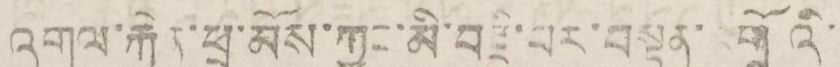འགལ་རྐྱེན་ཕྲ་མོས་ཀྱང་མི་བརྗི་པར་བསྟན་འགྲོའི་
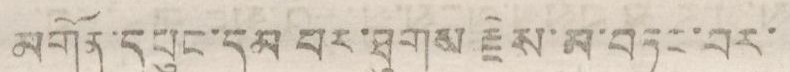མགོན་དཔུང་དམ པར་ཐུགས རྗེས་མ་བཏང་བར་
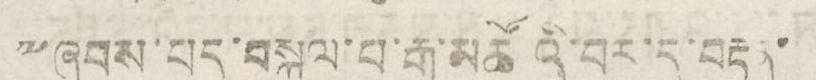༸ཞབས་པད་བསྐལ་པ་རྒྱ་མཚོའི་བར་དུ་བརྟན་
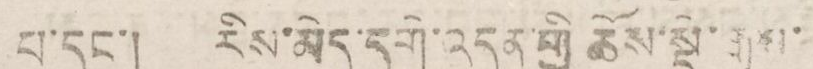པ་དང་། རིས་མེད་དགེ་འདུན་གྱི ཆོས་སྡེ་རྒྱས་
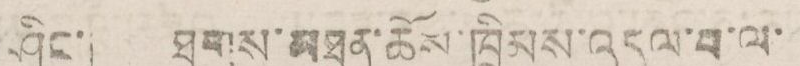ཤིང་། ཐུགས་མཐུན་ཆོས་ཁྲིམས་འདུལ་པ་ལ་
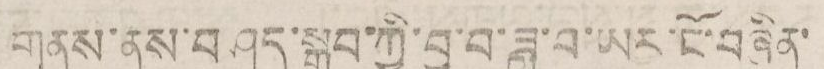གནས་ནས་བཤད་སྒྲུབ་ཀྱི་བྱ་བ་ཟླ་བ་ཡར་ངོ་བཞིན་
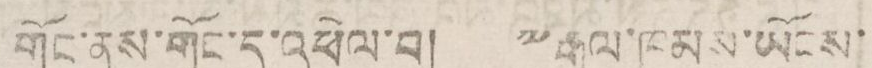གོང་ནས་གོང་སུ་འཕེལ་བ། ༸རྒྱལ་ཁམས་ཡོངས་
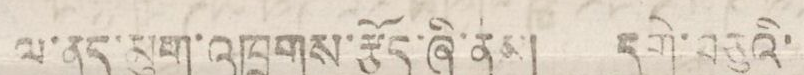ལ་ནད་མུག་འཁྲུགས་རྩོད་ཞི་ནས། དགེ་བཅུའི་
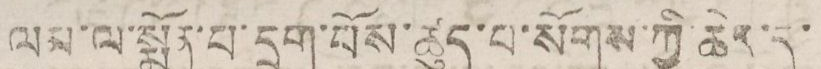ལམ་ལ་སྨོན་པ་དྲག་པོས་ཚུད་པ་སོགས་ཀྱི་ཆེད་དུ་
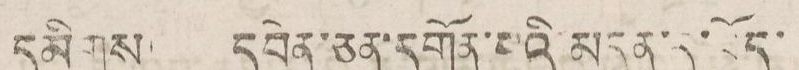དམིགས། དབེན་ཅན་དགོན་པའི་བདུན་དུ་བོད་
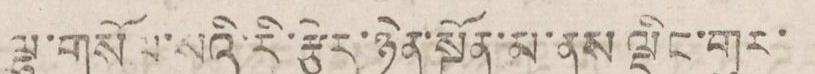ལྟ་གསོལ་སའི་རི་རྩེར་ཉེན་སྔོན་མ་ནས ལྡིང་གུར་
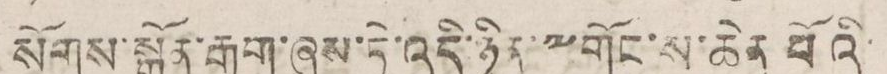སོགས་སྒྲོན་རྒྱག་ཞུས་ཏེ་འདི་ཉིན་༸གོང་ས་ཆེན་པོའི་
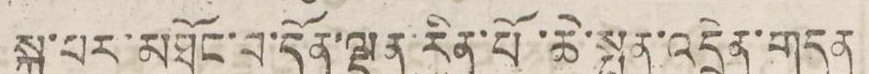སྐུ་པར་མཐོང་བ་དོན་ལྡན་རིན་པོ་ཆེ་སྤྱན་འདྲེན་གདན
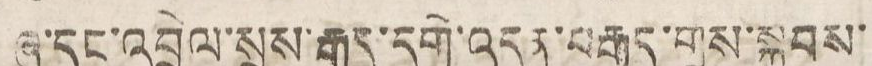ཞུ་དང་འབྲེལ་སྲས་རྒྱུད་དགེ་འདུན་བརྒྱད་གྲས་སྐྱབས་
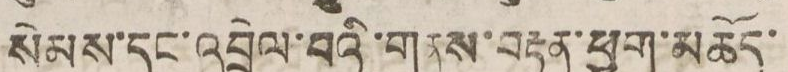སེམས་དང་འབྲེལ་བའི་གནས་བརྟན་ཕྱག་མཆོད་
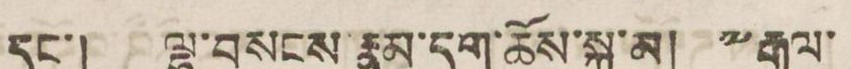དང་། ལྷ་བསངས་རྣམ་དག་ཆོས་སྐུ་མ། ༸རྒྱལ་
